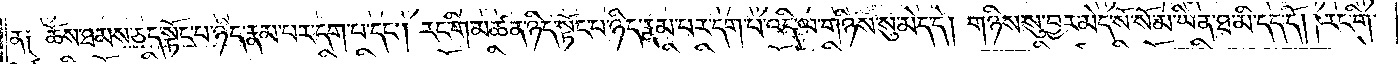ན༑ ཆོས་ཐམས་ཅད་སྟོང་པ་ཉིད་རྣམ་པར་དག་པ་དང༌། རང་གི་མཚན་ཉིད་སྟོང་པ་ཉིད་རྣམ་པར་དག་པ་འདི་ལ་གཉིས་སུ་མེད་དེ། གཉིས་སུ་བྱར་མེད་སོ་སོ་མ་ཡིན་ཐ་མི་དད་དོ། །རང་གི་
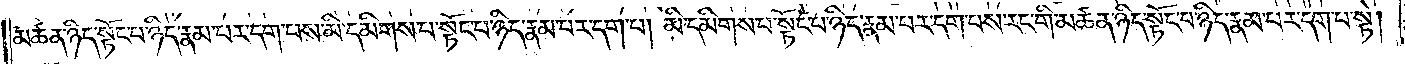མཚན་ཉིད་སྟོང་པ་ཉིད་རྣམ་པར་དག་པས་མི་དམིགས་པ་སྟོང་པ་ཉིད་རྣམ་པར་དག་པ། མི་དམིགས་པ་སྟོང་པ་ཉིད་རྣམ་པར་དག་པས་རང་གི་མཚན་ཉིད་སྟོང་པ་ཉིད་རྣམ་པར་དག་པ་སྟེ།
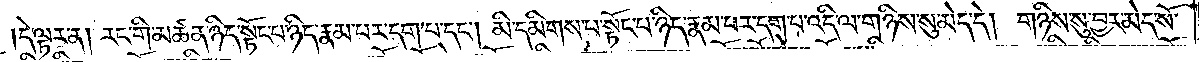དེ་ལྟར་ན། རང་གི་མཚན་ཉིད་སྟོང་པ་ཉིད་རྣམ་པར་དག་པ་དང༌། མི་དམིགས་པ་སྟོང་པ་ཉིད་རྣམ་པར་དག་པ་འདི་ལ་གཉིས་སུ་མེད་དེ། གཉིས་སུ་བྱར་མེད་སོ་
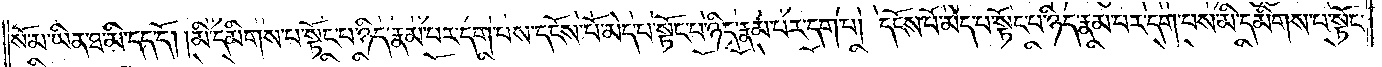སོ་མ་ཡིན་ཐ་མི་དད་དོ། །མི་དམིགས་པ་སྟོང་པ་ཉིད་རྣམ་པར་དག་པས་དངོས་པོ་མེད་པ་སྟོང་པ་ཉིད་རྣམ་པར་དག་པ། དངོས་པོ་མེད་པ་སྟོང་པ་ཉིད་རྣམ་པར་དག་པས་མི་དམིགས་པ་སྟོང་
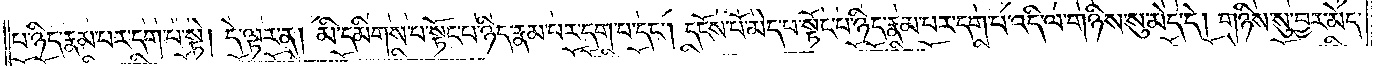པ་ཉིད་རྣམ་པར་དག་པ་སྟེ། དེ་ལྟར་ན། མི་དམིགས་པ་སྟོང་པ་ཉིད་རྣམ་པར་དག་པ་དང༌། དངོས་པོ་མེད་པ་སྟོང་པ་ཉིད་རྣམ་པར་དག་པ་འདི་ལ་གཉིས་སུ་མེད་དེ། གཉིས་སུ་བྱར་མེད་
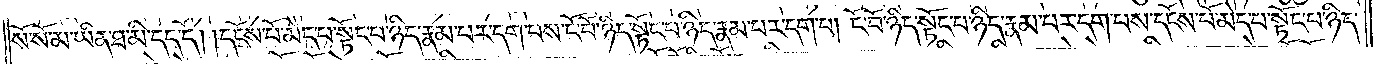སོ་སོ་མ་ཡིན་ཐ་མི་དད་དོ། །དངོས་པོ་མེད་པ་སྟོང་པ་ཉིད་རྣམ་པར་དག་པས་ངོ་བོ་ཉིད་སྟོང་པ་ཉིད་རྣམ་པར་དག་པ། ངོ་བོ་ཉིད་སྟོང་པ་ཉིད་རྣམ་པར་དག་པས་དངོས་པོ་མེད་པ་སྟོང་པ་ཉིད་
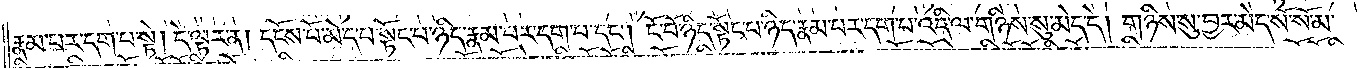རྣམ་པར་དག་པ་སྟེ། དེ་ལྟར་ན། དངོས་པོ་མེད་པ་སྟོང་པ་ཉིད་རྣམ་པར་དག་པ་དང༌། ངོ་བོ་ཉིད་སྟོང་པ་ཉིད་རྣམ་པར་དག་པ་འདི་ལ་གཉིས་སུ་མེད་དེ། གཉིས་སུ་བྱར་མེད་སོ་སོ་མ་
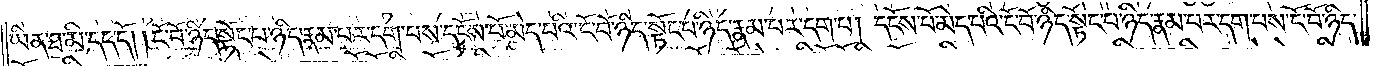ཡིན་ཐ་མི་དད་དོ། །ངོ་བོ་ཉིད་སྟོང་པ་ཉིད་རྣམ་པར་དག་པས་དངོས་པོ་མེད་པའི་ངོ་བོ་ཉིད་སྟོང་པ་ཉིད་རྣམ་པར་དག་པ། དངོས་པོ་མེད་པའི་ངོ་བོ་ཉིད་སྟོང་པ་ཉིད་རྣམ་པར་དག་པས་ངོ་བོ་ཉིད་
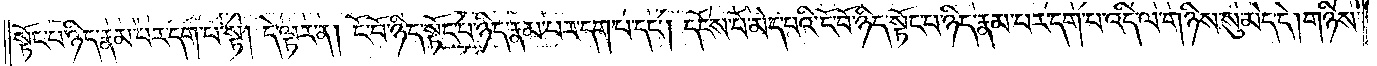སྟོང་པ་ཉིད་རྣམ་པར་དག་པ་སྟེ། དེ་ལྟར་ན། ངོ་བོ་ཉིད་སྟོང་པ་ཉིད་རྣམ་པར་དག་པ་དང༌། དངོས་པོ་མེད་པའི་ངོ་བོ་ཉིད་སྟོང་པ་ཉིད་རྣམ་པར་དག་པ་འདི་ལ་གཉིས་སུ་མེད་དེ། གཉིས་
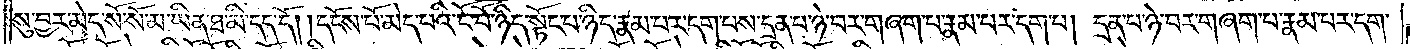སུ་བྱར་མེད་སོ་སོ་མ་ཡིན་ཐ་མི་དད་དོ། །དངོས་པོ་མེད་པའི་ངོ་བོ་ཉིད་སྟོང་པ་ཉིད་རྣམ་པར་དག་པས་དྲན་པ་ཉེ་བར་བཞག་པ་རྣམ་པར་དག་པ། དྲན་པ་ཉེ་བར་བཞག་པ་རྣམ་པར་དག་
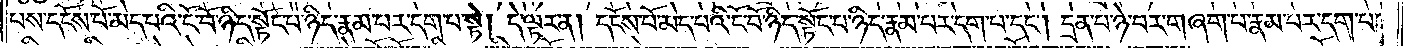པས་དངོས་པོ་མེད་པའི་ངོ་བོ་ཉིད་སྟོང་པ་ཉིད་རྣམ་པར་དག་པ་སྟེ། དེ་ལྟར་ན། དངོས་པོ་མེད་པའི་ངོ་བོ་ཉིད་སྟོང་པ་ཉིད་རྣམ་པར་དག་པ་དང༌། དྲན་པ་ཉེ་བར་བཞག་པ་རྣམ་པར་དག་པ་
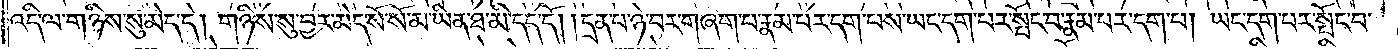འདི་ལ་གཉིས་སུ་མེད་དེ། གཉིས་སུ་བྱར་མེད་སོ་སོ་མ་ཡིན་ཐ་མི་དད་དོ། །དྲན་པ་ཉེ་བར་བཞག་པ་རྣམ་པར་དག་པས་ཡང་དག་པར་སྤོང་བ་རྣམ་པར་དག་པ། ཡང་དག་པར་སྤོང་བ་
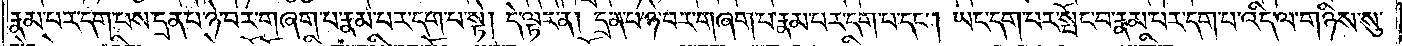རྣམ་པར་དག་པས་དྲན་པ་ཉེ་བར་བཞག་པ་རྣམ་པར་དག་པ་སྟེ། དེ་ལྟར་ན། དྲན་པ་ཉེ་བར་བཞག་པ་རྣམ་པར་དག་པ་དང༌། ཡང་དག་པར་སྤོང་བ་རྣམ་པར་དག་པ་འདི་ལ་གཉིས་སུ་
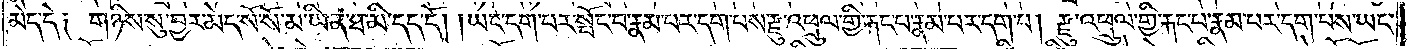མེད་དེ། གཉིས་སུ་བྱར་མེད་སོ་སོ་མ་ཡིན་ཐ་མི་དད་དོ། །ཡང་དག་པར་སྤོང་བ་རྣམ་པར་དག་པས་རྫུ་འཕྲུལ་གྱི་རྐང་པ་རྣམ་པར་དག་པ། རྫུ་འཕྲུལ་གྱི་རྐང་པ་རྣམ་པར་དག་པས་ཡང་
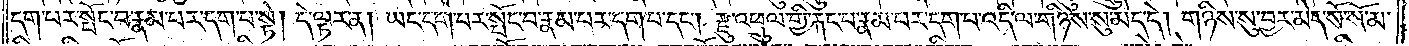དག་པར་སྤོང་བ་རྣམ་པར་དག་པ་སྟེ། དེ་ལྟར་ན། ཡང་དག་པར་སྤོང་བ་རྣམ་པར་དག་པ་དང༌། རྫུ་འཕྲུལ་གྱི་རྐང་པ་རྣམ་པར་དག་པ་འདི་ལ་གཉིས་སུ་མེད་དེ་གཉིས་སུ་བྱར་མེད་སོ་སོ་མ་
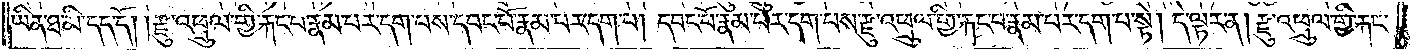ཡིན་ཐ་མི་དད་དོ། །རྫུ་འཕྲུལ་གྱི་རྐང་པ་རྣམ་པར་དག་པས་དབང་པོ་རྣམ་པར་དག་པ། དབང་པོ་རྣམ་པར་དག་པས་རྫུ་འཕྲུལ་གྱི་རྐང་པ་རྣམ་པར་དག་པ་སྟེ། དེ་ལྟར་ན། རྫུ་འཕྲུལ་གྱི་རྐང་
